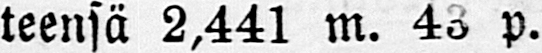teensä 2,441 m. 43 p.
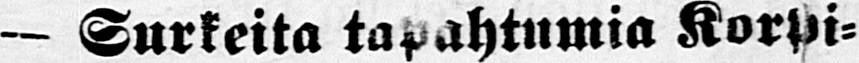— Surkeita tapahtumia Korpi-
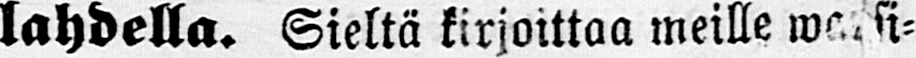lahdella. Sieltä kirjoittaa meille warsi-
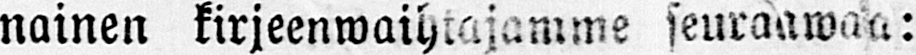nainen kirjeenwaihtajamme seuraawaa:
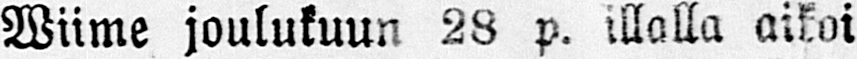Wiime joulukuun 28 p. illalla aikoi
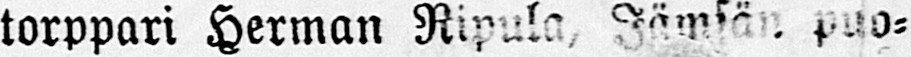torppari Herman Ripula, Jämsän puo-
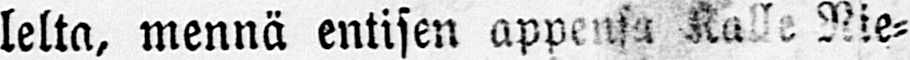lelta, mennä entisen appensa Nie-
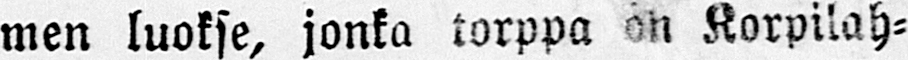men luokse, jonka torppa on Korpilah-
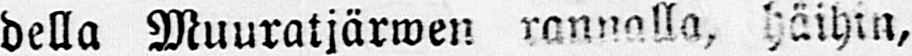della Muuratjärwen rannalla, häihin,
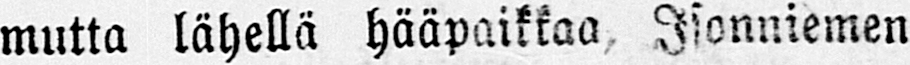mutta lähellä hääpaikkaa, Isonniemen
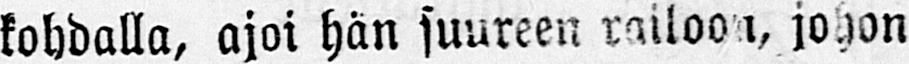kohdalla, ajoi hän suureen railoon, johon
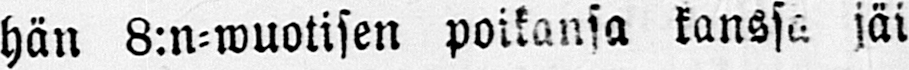hän 8:n-wuotisen poikansa kanssa jäi
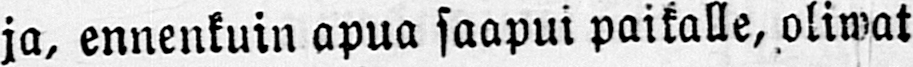ja, ennenkuin apua saapui paikalle, oliwat
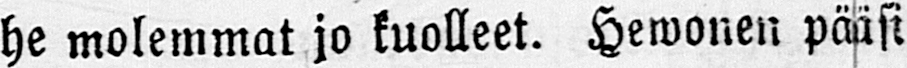he molemmat jo kuolleet. Hewonen pääsi
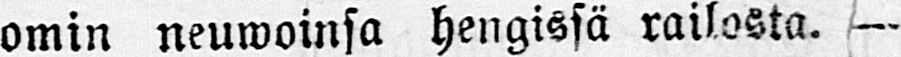omin neuwoinsa hengissä railosta. —
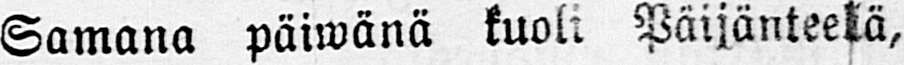Samana päiwänä kuoli Päijänteelä,
